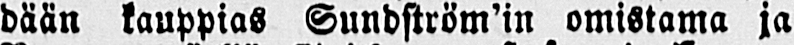dään kauppias Sundström'in omistama ja
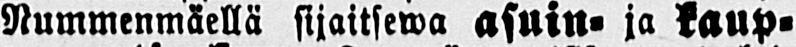Nummenmäellä sijaitsewa asuin- ja kaup-
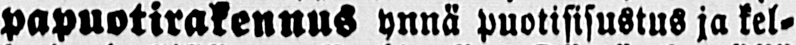papuotirakennus ynnä puotisisustus ja kel-
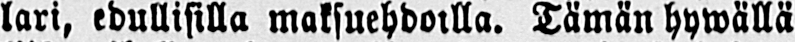lari, edullisilla maksuehdoilla. Tämän hywällä
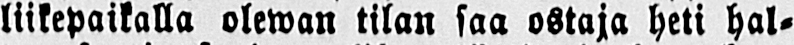liikepaikalla olewan tilan saa ostaja heti hal-
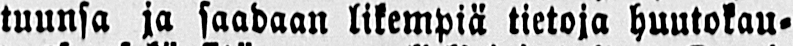tuunsa ja saadaan likempiä tietoja huutokau-
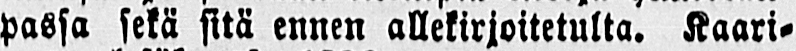passa sekä sitä ennen allekirjoitetulta. Kaari-
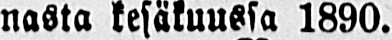nasta kesäkuussa 1890.
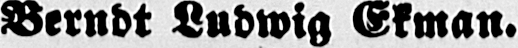Berndt Ludwig Ekman.
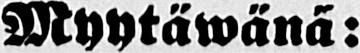Myytäwänä:
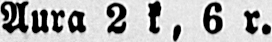Aura 2 k, 6 r.
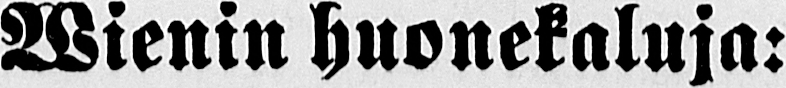Wienin huonekaluja:
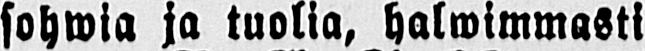sohwia ja tuolia, halwimmasti
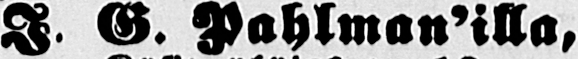I. G. Pahlman'illa,
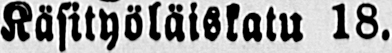Käsityöläiskatu 18.
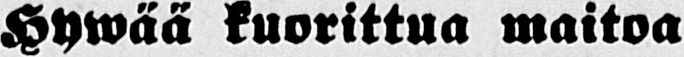Hywää kuorittua maitoa
